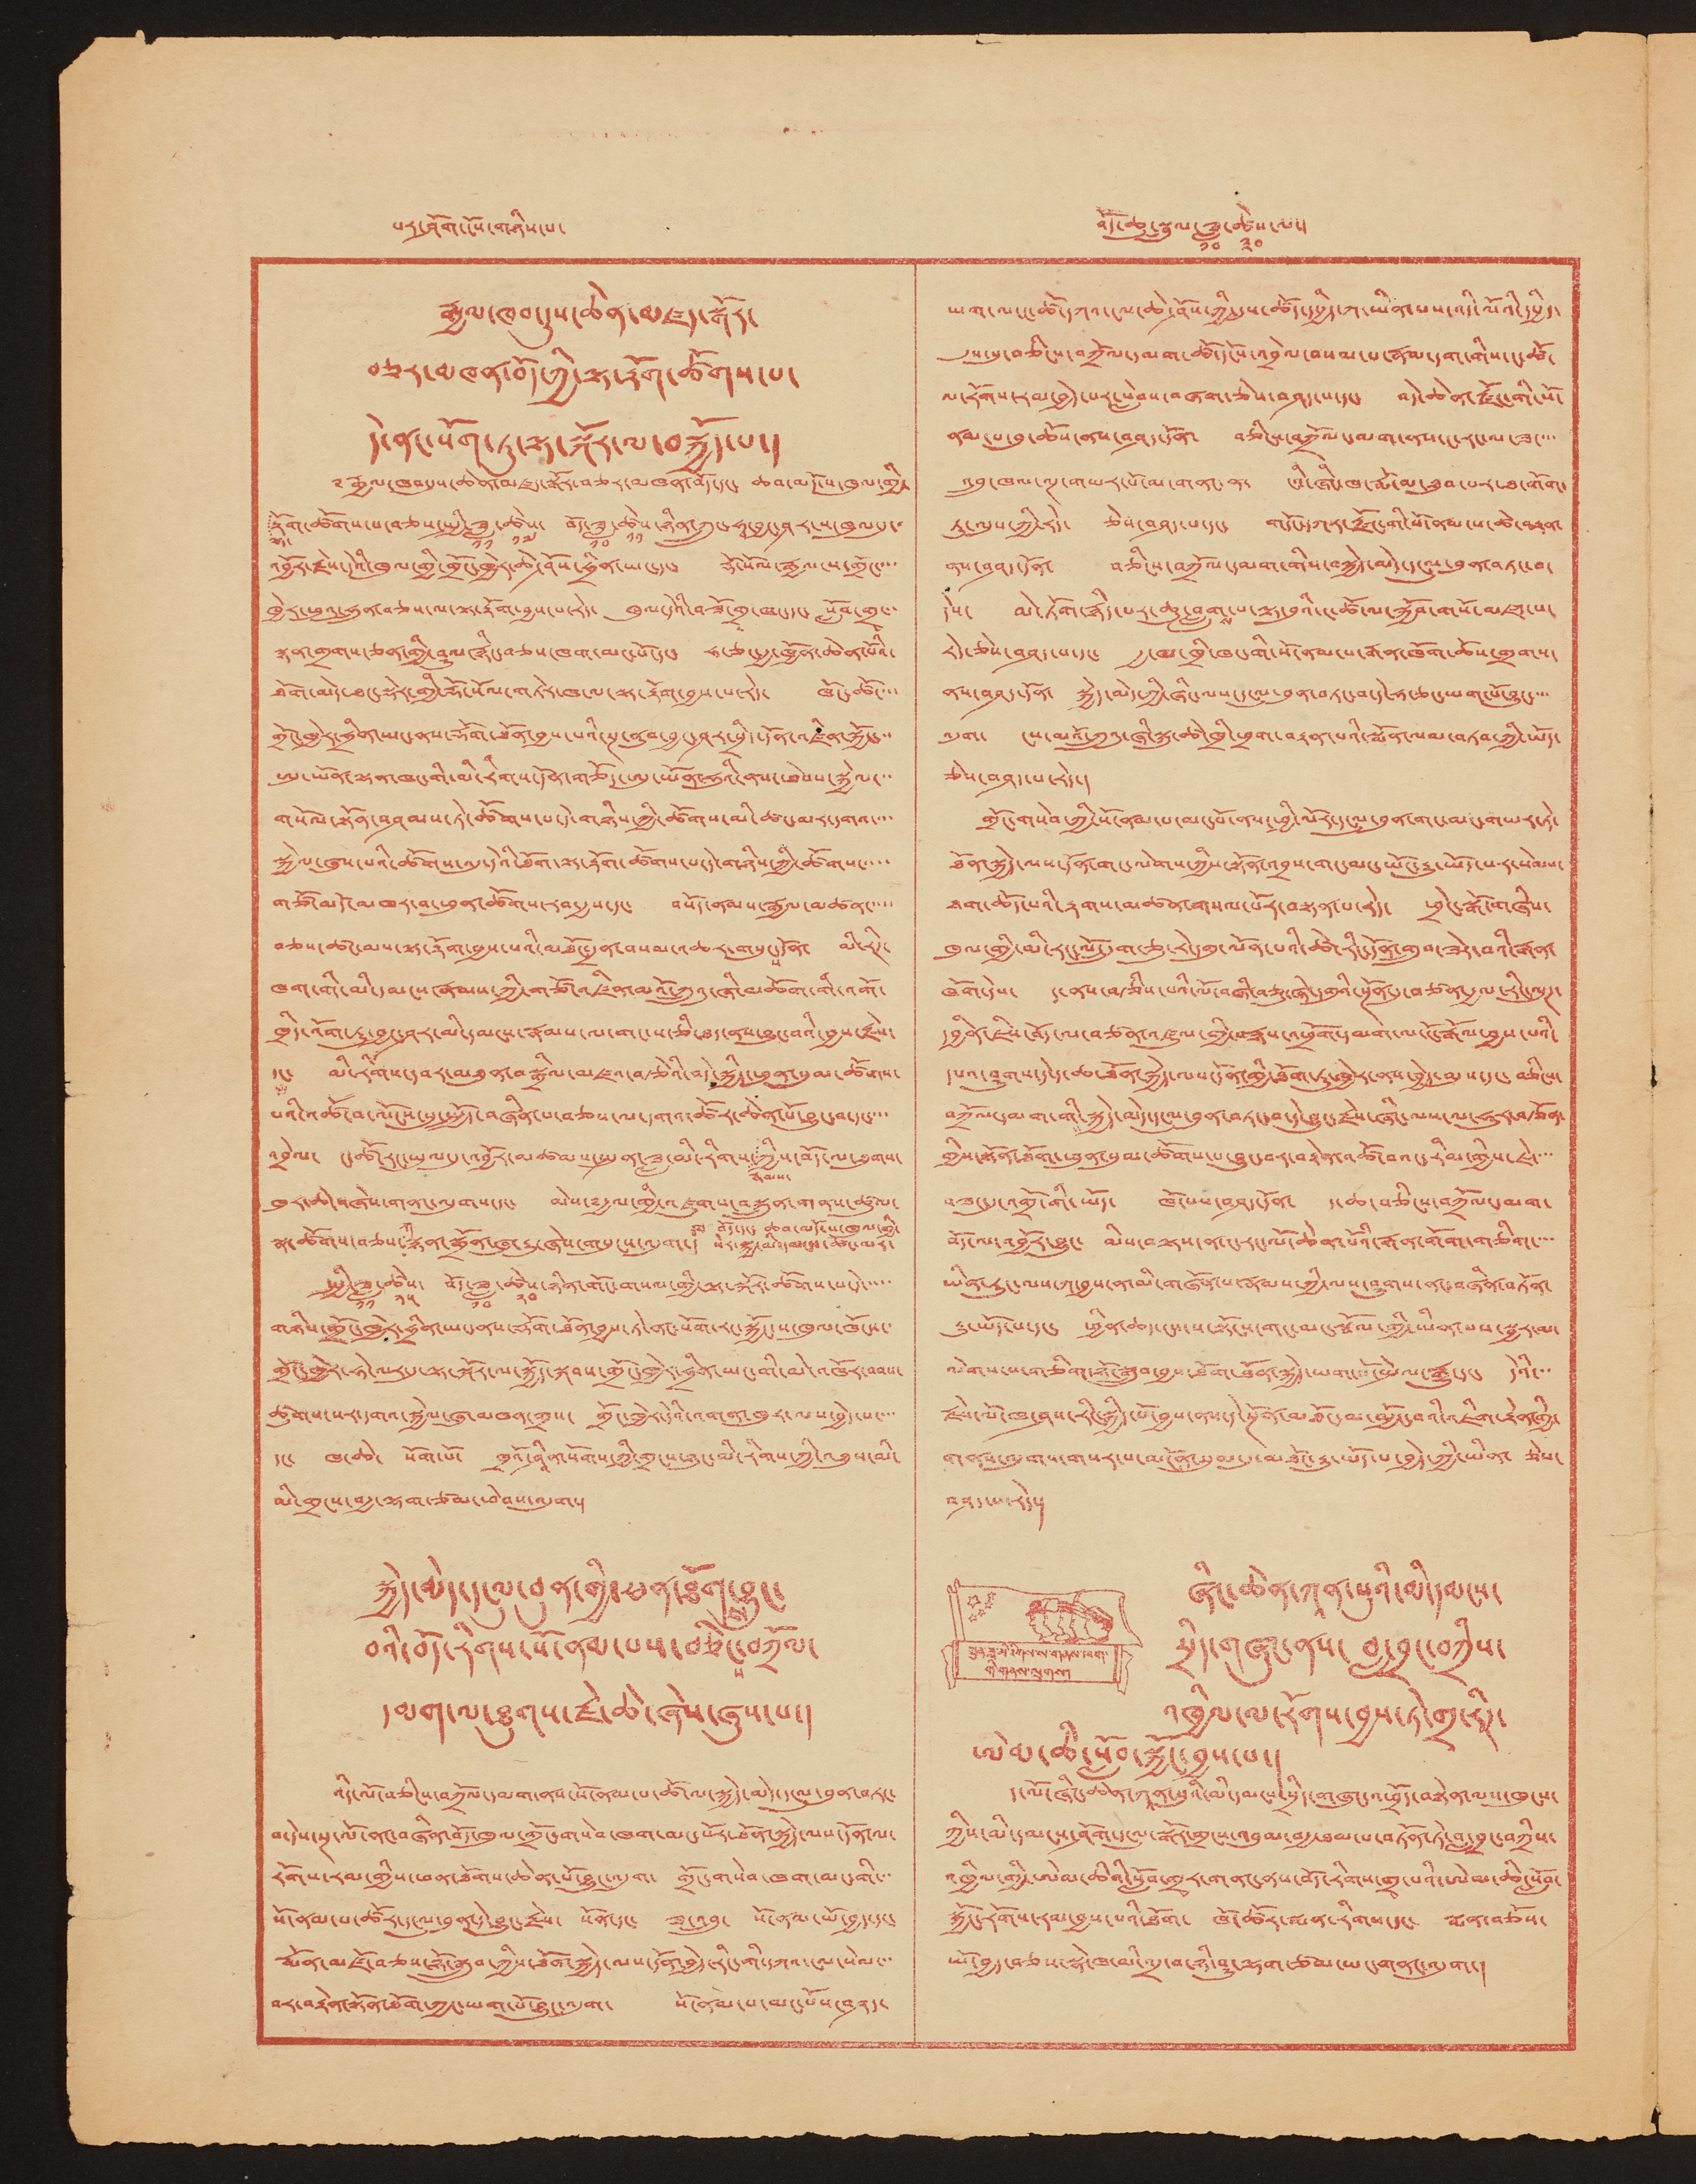པར་ཤོག་ངོས་གཉིས་པ་ བོད་ཆུ་སྦྲུལ་ཟླ་
༡༠
ཚེས་
༣༠
ལ་།
རྒྱལ་ཁབ་དུས་ཆེན་མཛད་སྒོར་
བཅར་མཁན་བོད་ཀྱི་ལྟ་རྟོག་ཚོགས་པ་
དེ་ནང་སོག་ཏུ་ལྟ་སྐོར་ལ་བསྐྱོད་པ།
༸རྒྱལ་ཁབ་དུས་ཆེན་མཛད་སྒོར་བཅར་མཁན་བོད་དང་ ཆབ་མདོ་ས་ཁུལ་གྱི་
ལྟ་
རྟོག་ཚོགས་པ་བཅས་བཅས་སྤྱི་ཟླ་
༡༡
ཚེས་
༡༧
བོད་ཟླ་
༡༠
ཚེས་
༡༡
ཉིན་ཀྲུང་ཧྭ་བྱང་ཤར་ས་ཁུལ་དུ་་
འབྱོར་རྗེས་དེའི་ཁུལ་གྱི་གྲོང་ཁྱེར་ཆེ་ཤོས་ཧྲིན་ཡང་དང་ རྡོ་སོལ་རྒྱལ་ས་གྲོང་་་་
ཁྱེར་ཕུའུ་ཧྲུན་བཅས་ལ་ལྟ་རྟོག་བྱས་པ་རེད་ ཁུལ་དེའི་བཟོ་གྲྭ་ཁང་དང་ སློབ་གྲྭ་་་
སྙན་གྲགས་ཅན་གྱི་ཤུལ་རྙིང་བཅས་ཁག་མང་པོ་དང་ ཧ་ཅང་རྒྱ་ཁྱོན་ཆེན་པོའི་
ཐོག་མདེ་ཐང་སྡེར་གྱི་རྡོ་སོལ་གཏེར་ཁ་ལ་ལྟ་རྟོག་བྱས་པ་རེད་ ཁོང་ཚོ་་་་
གྲོང་ཁྱེར་ཧྲིན་ཡང་ནས་རྡོག་ཐོན་བྱས་པའི་སྔ་ནུབ་བྱང་ཤར་སྲིད་དོན་འཛིན་སྐྱོང་་་
ཨུ་ཡོན་ལྷན་ཁང་གི་མི་རིགས་དོན་གཅོད་ཨུ་ཡོན་ཧུའི་ནས་ཕེབས་སྐྱེལ་་་
གསོལ་སྟོན་བཤམས་ཏེ་ཚོགས་པ་དེ་གཉིས་ཀྱི་ཚོགས་མི་ཚང་མར་དགའ་་་་
སྐྱེལ་ཞུས་པའི་ཚོགས་འདུ་དེའི་ཐོག་ལྟ་རྟོག་ཚོགས་པ་དེ་གཉིས་ཀྱི་ཚོགས་་་་་
གཙོ་མདོ་མཁར་བ་ཕུན་ཚོགས་རབ་རྒྱས་དང་ བསོད་ནམས་རྒྱལ་མཚན་་་་་
བཅས་ཚང་མས་ལྟ་རྟོག་བྱས་པའི་མཐོང་དྲན་བསམ་འཆར་གསུང
ས
་དོན་ མི་རིཊ་
ཁག་གི་མི་དམངས་རྣམས་ཀྱི་གཙོ་འཛིན་མའོ་ཀྲུའུ་ཞི་མཆོག་གི་འགོ་
ཁྲིད་འོག་ཏུ་བྱང་ཤར་མི་དམངས་རྣམས་ལ་གང་ས་ཅི་ཐད་ནས་བྱུང་བའི་བྱས་རྗེས་
དང་ མི་རིགས་དབར་མཐུན་སྒྲིལ་མཛའ་བརྩེའི་བདེ་སྐྱིད་ཕུན་སུམ་ཚོགས་
པའི་འཚོ་བ་ལོངས་སུ་སྤྱོད་བཞིན་པ་བཅས་ལ་དགའ་ཚོར་ཆེན་པོ་བྱུང་བ་དང་་་་
འབྲེལ་ ང་ཚོ་རང་ཡུལ་དུ་འབྱོར་མཚམས་སྤུན་ཟླ་མི་རིགས་
རྣམས་
ཀྱིས་བོད་ལ་ཐུགས་
ཁུར་ཆེ་ཞེས་གནང་ལུགས་དང་ མེས་༸རྒྱལ་གྱི་འཛུགས་བསྐྲུན་གནས་ཚུལ་
སྣ་ཚོགས་བཅས་
ཀ
སྙན་སྒྲོན་ཞུ་རྒྱུ་ཞེས་གསུངས་འདུག་།
ཁ བོད་དང་ཆབ་མདོ་ས་ཁུལ་གྱི་
སེར་སྐྱ་མི་དམངས་ཚང་མར་
སྤྱི་ཟླ་
༡༡
ཚེས་
༢༥
བོད་ཟླ་
༡༠
ཚེས་
༢༠
ཉིན་གོང་གསལ་གྱི་ལྟ་སྐོར་ཚོགས་པ་དེ་་་་་
གཉིས་གྲོང་ཁྱེར་ཧྲིན་ཡང་ནས་རྡོག་ཐོན་བྱས་ཏེ་ནང་སོག་རང་སྐྱོང་ས་ཁུལ་ཁོངས་་
གྲོང་ཁྱེར་ཧེ་ལར་དུ་ལྟ་སྐོར་ལ་སྐྱོད་སྐབས་གྲོང་ཁྱེར་ཧྲིན་ཡང་གི་མེ་འཁོར་བབས་
ཚུགས་སར་དགའ་སྐྱེལ་ཞུ་མཁན་གྲས་ གྲོང་ཁྱེར་དེའི་འགན་ཁུར་ལས་བྱེད་པ་་་་
དང་ ཁ་ཆེ་ སོག་པོ་ ཁྲའོ་ཤཱིན་སོགས་ཀྱི་གྲངས་ཉུང་མི་རིགས་ཀྱི་འཐུས་མི་
མི་གྲངས་བརྒྱ་ལྷག་ཙམ་ཕེབས་འདུག།
སྐྱེད་མེད་དངུལ་བུན་གྱི་ཕན་ཐོགས་བྱུང་
བའི་བོད་རིགས་སོ་ནམ་པས་བཅིང
ས
་བཀྲོལ་
དམག་ལ་ཐུགས་རྗེ་ཆེ་ཞེས་ཞུས་པ་།
འདི་ལོ་བཅིངས་བཀྲོལ་དམག་ནས་སོ་ནམ་པ་ཚོ་ལ་སྐྱེད་མེད་དངུལ་བུན་བཏང་
བ་དེས་སྔ་ལོ་ནང་བཞིན་བོད་ཁུལ་གྲོང་གསེབ་ཁག་མང་པོར་ཐོན་སྐྱེད་ལས་དོན་ལ་
རོགས་རམ་གྱིས་ཕན་ཐོགས་ཆེན་པོ་བྱུང་འདུག་ གྲོང་གསེབ་ཁག་མང་གི་་་
སོ་ནམ་པ་ཚོར་དངུལ་བུན་དེ་བྱུང་རྗེས་ སོན་དང་ ཟ་འབྲུ་ སོ་ནམ་ཡོ་བྱད་དང་
རྨོན་མཛོ་བཅས་ཉི་སྒྲུབ་ཀྱིས་ཐོན་སྐྱེད་ལས་དོན་བྱེད་རིང་གི་དཀའ་ངལ་སེལ་་་
བར་བརྟེན་སྟོན་ཐོག་ཀྱང་ཡག་པོ་བྱུང་འདུག་ སོ་ནམ་པ་མང་པོས་བཤད་
ཡག་ལ་ང་ཚོ་དཀའ་ངལ་ཆེ་ཤོས་ཀྱི་དུས་ཚོད་དཔྱིད་ཀ་ཡིན་པས་འདི་ལོའི་དཔྱིད་
དུས་སུ་བཅིངས་བཀྲོལ་དམག་ཚོ་དངོས་འབྲེལ་བསམ་པ་རྣམ་དག་གིས་ང་ཚོ་
ལ་རོགས་རམ་བྱེད་པར་སླེབས་བཞག་ཅེས་བཤད་པ་དང་ བདེ་ཆེན་རྫོང་གི་སོ་
ནམ་པ་བུ་ཆོས་ནས་བཤད་དོན་ བཅིངས་བཀྲོལ་དམག་ནས་ང་རང་ལ་ཟ་་་་
འབྲུ་ཁལ་ལྔ་གཡར་པོ་མ་གནང་ན་ ངའི་ཞིང་ཁ་རྨོ་མ་ཐུབ་པར་ཐ་གོག་
ཏུ་ལུས་ཀྱི་རེད་ ཅེས་བཤད་པ་དང་ གདོང་དཀར་རྫོང་གི་སོ་ནམ་པ་ཚེ་བརྟན་
ནས་བཤད་དོན་ བཅིངས་བཀྲོལ་དམག་གིས་བསྐྱེད་མེད་དངུལ་བུན་བཏང་བ་
དེས་ མེ་ཏོག་རྙེད་པར་ཆུ་བླུག
ས
་ལྟ་བུའི་ང་ཚོ་ལ་སྐྱོབ་གསོ་མཛད་པ་
རེད་ཅེས་བཤད་པ་དང་ རྒྱ་མ་ཁྲི་ཁང་གི་སོ་ནམ་པ་རྒན་ཁོག་ཆོས་གྲགས་
ནས་བཤད་དོན་ སྐྱེད་མེད་ཀྱི་ཞིང་ལས་དངུལ་བུན་བཏང་བ་དེ་ཧ་ཅང་ཡག་པོ་བྱུང་་་་
འདུག་ ངས་མའོ་ཀྲུའུ་ཞི་སྐུ་ཚེ་ཁྲི་ཕྲག་བརྟན་པའི་སྨོན་ལམ་བཏབ་ཀྱི་ཡོད་
ཅེས་བཤད་པ་རེད་།
གྲོང་གསེབ་ཀྱི་སོ་ནམ་པ་མང་པོ་ནས་ཕྱི་ལོར་དངུལ་བུན་གང་མང་གཡར་ཏེ་
ཐོན་སྐྱེད་ལས་དོན་གང་ལེགས་ཀྱིས་སྟོན་འབྲས་གང་མང་ཡོང་རྒྱུ་ཡོད་པར་སེམས་
ཐག་ཆོད་པའི་རྟགས་མཚན་གསལ་པོར་བསྟན་པ་རེད་ ཕྲེང་སྒོ་གཞིས་
ཁུལ་གྱི་མི་རང་ལོ་དྲུག་ཅུ་རེ་དགུ་ལོན་པའི་ཚེ་རིང་དོན་གྲུབ་ཟེར་བའི་རྒན་
ཁོག་དེས་ ད་ནས་བརྩིས་པའི་ལོ་བཞི་བཅུ་ཞེ་དགུའི་སྔོན་དུ་བཙན་རྒྱལ་རིང་ལུཊ་
དབྱིན་ཇིས་བོད་ལ་བཙན་འཛུལ་གྱི་བརྙས་འཕྲོག་དམག་ལ་ངོ་རྒོལ་བྱས་པའི་
དཔའ་ཤུགས་དེ་ད་ཆ་ཐོན་སྐྱེད་ལས་དོན་གྱི་ཐོག་ཏུ་ཁྱེར་ནས་བྱེད་མུས་དང་ བཅིངས་
བཀྲོལ་དམག་གི་སྐྱེད་མེད་དངུལ་བུན་བཏང་བ་དེ་བྱུང་རྗེས་ཞིང་ལས་ལ་ཧུར་བརྩོན་
གྱིས་སྟོན་ཐོག་ཕུན་སུམ་ཚོགས་པ་བྱུང་བར་བརྟེན་འཚོ་བའང་རིམ་གྱིས་ཇེ་་་་
བཟང་དུ་འགྲོ་གི་ཡོད་ ཁོ་པས་བཤད་དོན་ ད་ཆ་བཅིངས་བཀྲོལ་དམག་
བོད་ལ་འབྱོར་བྱུང་ མིས་བལྟས་ན་ང་རང་ལོ་ཆེན་པོའི་རྒན་གོག་གཅིག་་་་
ཡིན་རུང་ལས་ཀ་བྱས་ན་མི་གཞོན་པ་རྣམས་ཀྱི་ལས་ཤུགས་ནང་བཞིན་བཏོན་
རྒྱུ་ཡོད་པ་དང་ ཕྱིན་ཆད་ངས་ས་སྟོངས་གང་མང་སྦོལ་གྱི་ཡིན་པས་སྦྱར་མ་
ལེགས་པ་གཅིག་ཉོ་སྒྲུབ་བྱས་ཐོག་ཐོན་སྐྱེད་ཡག་པོ་སྤེལ་རྒྱུ་དང་ དེའི་་་
རྗེས་ལོ་ཁ་ཤས་རིང་སྐྱིད་པོ་བྱས་ནས་དེ་སྔོན་མཐོང་མ་མྱོང་བའི་འཇིག་རྟེན་གྱི་
གནས་ལུགས་གསར་པ་མངོན་སུམ་དུ་མཐོང་རྒྱུ་ཡོད་པ་བྱེད་ཀྱི་ཡིན་ ཅེས་
བཤད་པ་རེད་།
སྤུན་ཟླ་མི་རིགས་ས་གནས་ཁག་
གི་གནས་ལུགས།
ཞིང་ཆེན་ཀཱན་སུའི་མི་དམངས་
སྲིད་གཞུང་ནས་ བླ་བྲང་བཀྲིས་
འཁྱིལ་ལ་རོགས་བྱས་ཏེ་གྲྭ་རིཊ་
ཨེམ་ཆི་སློབ་སྐྱོང་བྱས་པ་།
ད་ལོ་ཞིང་ཆེན་ཀཱན་སུའི་མི་དམངས་སྲིད་གཞུང་འཕྲོད་བརྟེན་ལས་ཁུངས་
ཀྱིས་མི་དམངས་ཤོག་དངུལ་སྒོར་གྲངས་འབུམ་བརྒྱ་ཐམ་པ་བཏོན་ཏེ་བླ་བྲང་བཀྲིས་
འཁྱིལ་གྱི་ཨེམ་ཆིའི་སློབ་གྲྭར་གནང་ནས་བོད་རིགས་གྲྭ་པའི་ཨེམ་ཆི་སློབ་
སྐྱོང་རོགས་རམ་བྱས་པའི་ཐོག་ ཁོ་ཚོར་སྨན་རིགས་དང་ སྨན་བཅོས་
ཡོ་བྱད་བཅས་སྣེ་ཁ་མི་འདྲ་བ་ཉི་ཤུ་ལྷག་ཙམ་ཡང་གནང་འདུག་།
